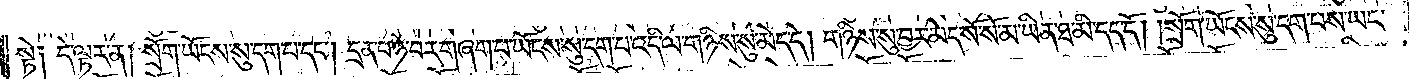སྟེ༑ དེ་ལྟར་ན། སྲོག་ཡོངས་སུ་དག་པ་དང༌། དྲན་པ་ཉེ་བར་བཞག་པ་ཡོངས་སུ་དག་པ་འདི་ལ་གཉིས་སུ་མེད་དེ། གཉིས་སུ་བྱར་མེད་སོ་སོ་མ་ཡིན་ཐ་མི་དད་དོ། །སྲོག་ཡོངས་སུ་དག་པས་ཡང་
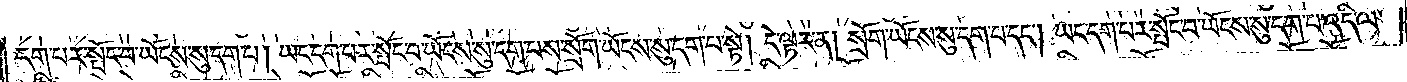དག་པར་སྤོང་བ་ཡོངས་སུ་དག་པ། ཡང་དག་པར་སྤོང་བ་ཡོངས་སུ་དག་པས་སྲོག་ཡོངས་སུ་དག་པ་སྟེ། དེ་ལྟར་ན། སྲོག་ཡོངས་སུ་དག་པ་དང༌། ཡང་དག་པར་སྤོང་བ་ཡོངས་སུ་དག་པ་འདི་ལ་
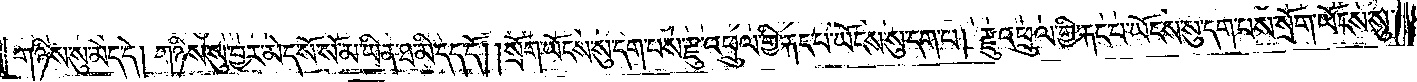གཉིས་སུ་མེད་དེ། གཉིས་སུ་བྱར་མེད་སོ་སོ་མ་ཡིན་ཐ་མི་དད་དོ། །སྲོག་ཡོངས་སུ་དག་པས་རྫུ་འཕྲུལ་གྱི་རྐང་པ་ཡོངས་སུ་དག་པ། རྫུ་འཕྲུལ་གྱི་རྐང་པ་ཡོངས་སུ་དག་པས་སྲོག་ཡོངས་སུ་
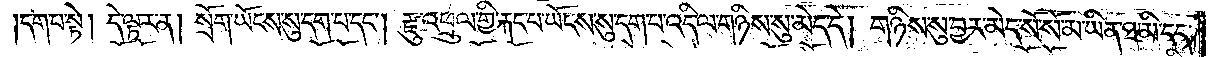དག་པ་སྟེ། དེ་ལྟར་ན། སྲོག་ཡོངས་སུ་དག་པ་དང༌། རྫུ་འཕྲུལ་གྱི་རྐང་པ་ཡོངས་སུ་དག་པ་འདི་ལ་གཉིས་སུ་མེད་དེ། གཉིས་སུ་བྱར་མེད་སོ་སོ་མ་ཡིན་ཐ་མི་དད་
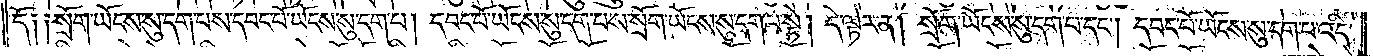དོ༑ ༑སྲོག་ཡོངས་སུ་དག་པས་དབང་པོ་ཡོངས་སུ་དག་པ། དབང་པོ་ཡོངས་སུ་དག་པས་སྲོག་ཡོངས་སུ་དག་པ་སྟེ། དེ་ལྟར་ན། སྲོག་ཡོངས་སུ་དག་པ་དང༌། དབང་པོ་ཡོངས་སུ་དག་པ་འདི་
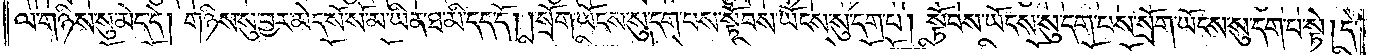ལ་གཉིས་སུ་མེད་དེ། གཉིས་སུ་བྱར་མེད་སོ་སོ་མ་ཡིན་ཐ་མི་དད་དོ། །སྲོག་ཡོངས་སུ་དག་པས་སྟོབས་ཡོངས་སུ་དག་པ། སྟོབས་ཡོངས་སུ་དག་པས་སྲོག་ཡོངས་སུ་དག་པ་སྟེ། དེ་
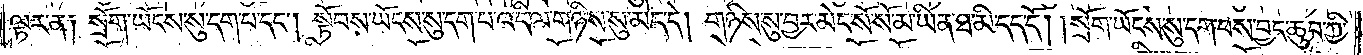ལྟར་ན༑ སྲོག་ཡོངས་སུ་དག་པ་དང༌། སྟོབས་ཡོངས་སུ་དག་པ་འདི་ལ་གཉིས་སུ་མེད་དེ། གཉིས་སུ་བྱར་མེད་སོ་སོ་མ་ཡིན་ཐ་མི་དད་དོ། །སྲོག་ཡོངས་སུ་དག་པས་བྱང་ཆུབ་ཀྱི་
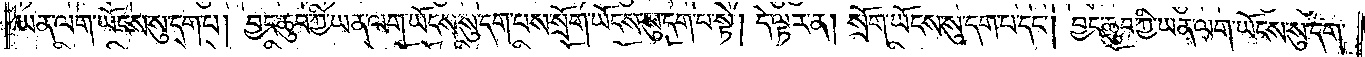ཡན་ལག་ཡོངས་སུ་དག་པ། བྱང་ཆུབ་ཀྱི་ཡན་ལག་ཡོངས་སུ་དག་པས་སྲོག་ཡོངས་སུ་དག་པ་སྟེ། དེ་ལྟར་ན། སྲོག་ཡོངས་སུ་དག་པ་དང༌། བྱང་ཆུབ་ཀྱི་ཡན་ལག་ཡོངས་སུ་དག་
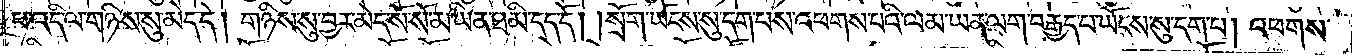པ་འདི་ལ་གཉིས་སུ་མེད་དེ། གཉིས་སུ་བྱར་མེད་སོ་སོ་མ་ཡིན་ཐ་མི་དད་དོ། །སྲོག་ཡོངས་སུ་དག་པས་འཕགས་པའི་ལམ་ཡན་ལག་བརྒྱད་པ་ཡོངས་སུ་དག་པ། འཕགས་
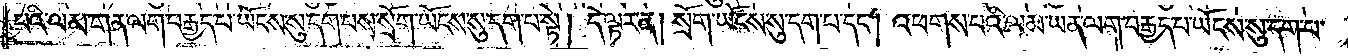པའི་ལམ་ཡན་ལག་བརྒྱད་པ་ཡོངས་སུ་དག་པས་སྲོག་ཡོངས་སུ་དག་པ་སྟེ། དེ་ལྟར་ན། སྲོག་ཡོངས་སུ་དག་པ་དང༌། འཕགས་པའི་ལམ་ཡན་ལག་བརྒྱད་པ་ཡོངས་སུ་དག་པ་
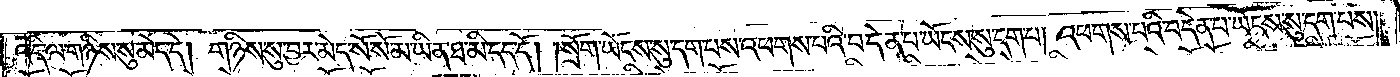འདི་ལ་གཉིས་སུ་མེད་དེ། གཉིས་སུ་བྱར་མེད་སོ་སོ་མ་ཡིན་ཐ་མི་དད་དོ། །སྲོག་ཡོངས་སུ་དག་པས་འཕགས་པའི་བདེན་པ་ཡོངས་སུ་དག་པ། འཕགས་པའི་བདེན་པ་ཡོངས་སུ་དག་པས་
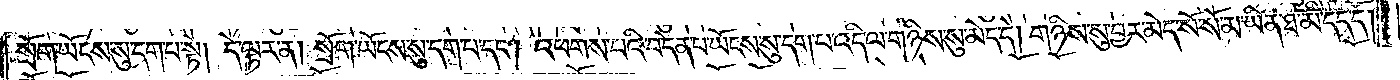སྲོག་ཡོངས་སུ་དག་པ་སྟེ། དེ་ལྟར་ན། སྲོག་ཡོངས་སུ་དག་པ་དང༌། འཕགས་པའི་བདེན་པ་ཡོངས་སུ་དག་པ་འདི་ལ་གཉིས་སུ་མེད་དེ། གཉིས་སུ་བྱར་མེད་སོ་སོ་མ་ཡིན་ཐ་མི་དད་དོ། །
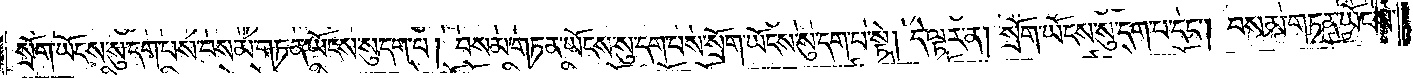སྲོག་ཡོངས་སུ་དག་པས་བསམ་གཏན་ཡོངས་སུ་དག་པ། བསམ་གཏན་ཡོངས་སུ་དག་པས་སྲོག་ཡོངས་སུ་དག་པ་སྟེ། དེ་ལྟར་ན། སྲོག་ཡོངས་སུ་དག་པ་དང༌། བསམ་གཏན་ཡོངས་
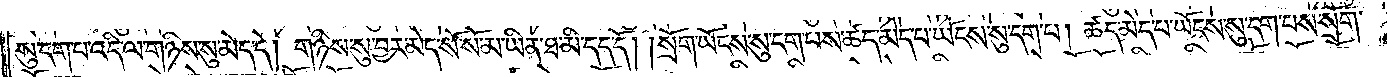སུ་དག་པ་འདི་ལ་གཉིས་སུ་མེད་དེ། གཉིས་སུ་བྱར་མེད་སོ་སོ་མ་ཡིན་ཐ་མི་དད་དོ། །སྲོག་ཡོངས་སུ་དག་པས་ཚད་མེད་པ་ཡོངས་སུ་དག་པ། ཚད་མེད་པ་ཡོངས་སུ་དག་པས་སྲོག་
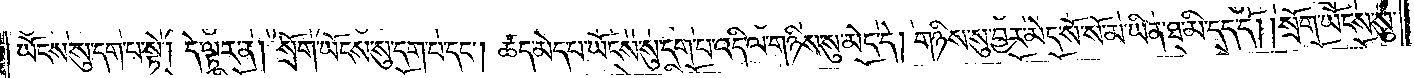ཡོངས་སུ་དག་པ་སྟེ། དེ་ལྟར་ན། སྲོག་ཡོངས་སུ་དག་པ་དང༌། ཚད་མེད་པ་ཡོངས་སུ་དག་པ་འདི་ལ་གཉིས་སུ་མེད་དེ། གཉིས་སུ་བྱར་མེད་སོ་སོ་མ་ཡིན་ཐ་མི་དད་དོ། །སྲོག་ཡོངས་སུ་
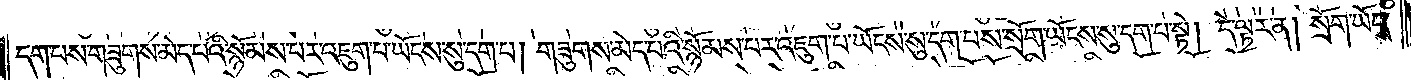དག་པས་གཟུགས་མེད་པའི་སྙོམས་པར་འཇུག་པ་ཡོངས་སུ་དག་པ། གཟུགས་མེད་པའི་སྙོམས་པར་འཇུག་པ་ཡོངས་སུ་དག་པས་སྲོག་ཡོངས་སུ་དག་པ་སྟེ། དེ་ལྟར་ན། སྲོག་ཡོངས་
